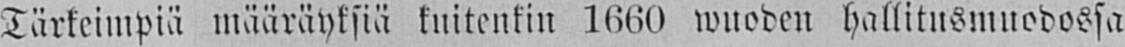Tärkeimpiä määräyksiä kuitenkin 1660 wuoden hallitusmuodossa
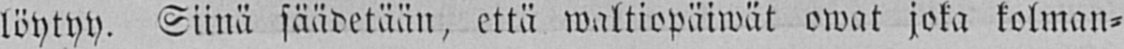löytyy. Siinä säädetään, että waltiopäiwät owat joka kolman-
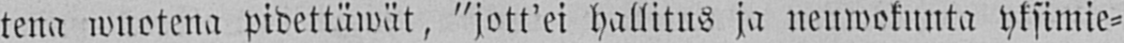tena wuotena pidettäwät, "jott'ei hallitus ja neuwokunta yksimie-
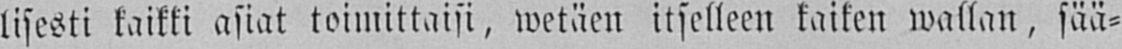lisesti kaikki asiat toimittaisi, wetäen itselleen kaiken wallan, sää-
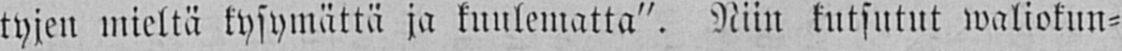tyjen mieltä kysymättä ja kuulematta". Niin kutsutut waliokun-
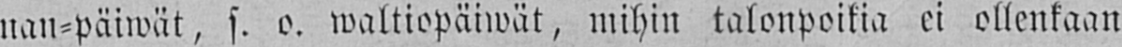nan-päiwät, s. o. waltiopäiwät, mihin talonpoikia ei ollenkaan
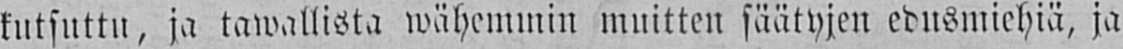kutsuttu, ja tawallista wähemmin muitten säätyjen edusmiehiä, ja
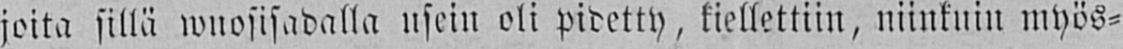joita sillä wuosisadalla usin oli pidetty, kiellettiin, niinkuin myös-
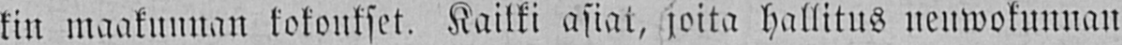kin maakunnan kokoukset. Kaikki asiat, joita hallitus neuwokunnan
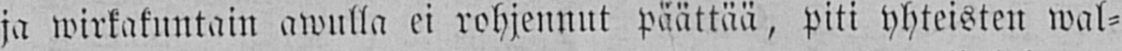ja wirkakuntain awulla ei rohjennut päättää, piti yhteisten wal-
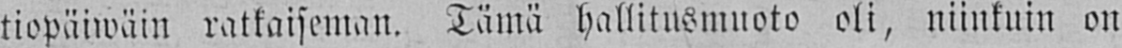tiopäiwäin ratkaiseman. Tämä hallitusmuoto oli, niinkuin on
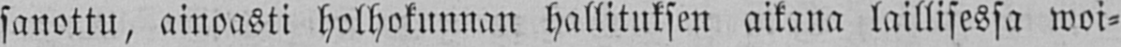sanottu, ainoasti holhokunnan hallituksen aikana laillisessa woi-
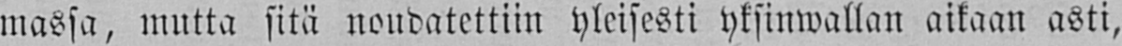massa, mutta sitä noudatettiin yleisesti yksinwallan aikaan asti,
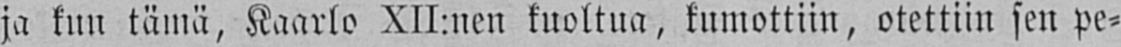ja kun tämä, Kaarlo XII:nen kuoltua, kumottiin, otettiin sen pe-
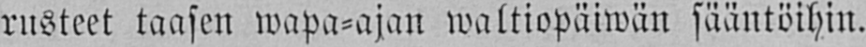rusteet taasen wapa-ajan waltiopäiwän sääntöihin.
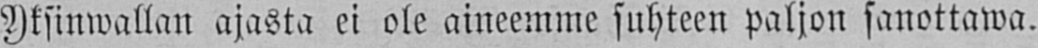yksinwallan ajasta ei ole aineemme suhteen paljon sanottawa.
